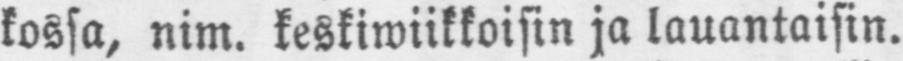kossa, nim. keskiwiikkoisin ja lauantaisin.
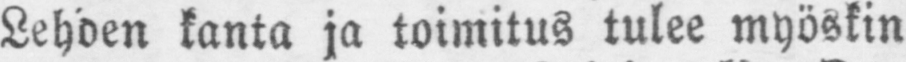Lehden kanta ja toimitus tulee myöskin
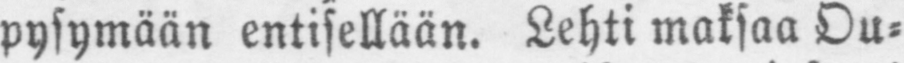pysymään entisellään. Lehti maksaa Ou-
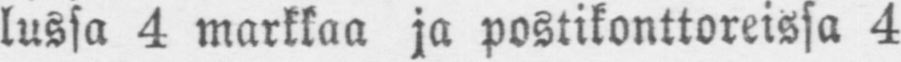lussa 4 markkaa ja postikonttoreissa 4
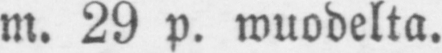m. 29 p. wuodelta.
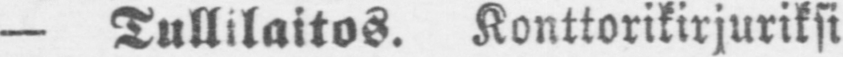— Tullilaitos. Konttorikirjuriksi
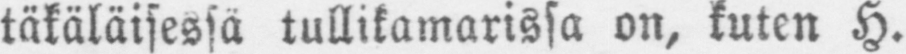täkäläisessä tullikamarissa on, kuten H.
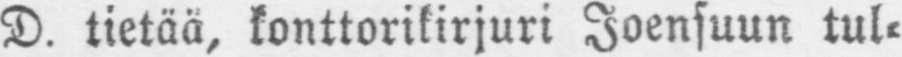D. tietää, konttorikirjuri Joensuun tul-
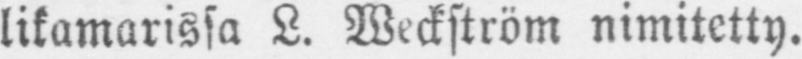likamarissa L. Weckström nimitetty.
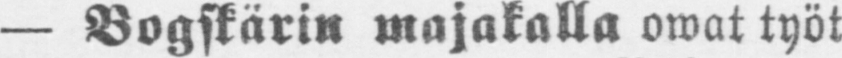— Bogskärin majakalla owat työt
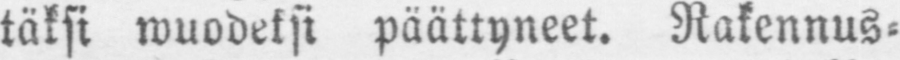täksi wuodeksi päättyneet. Rakennus-
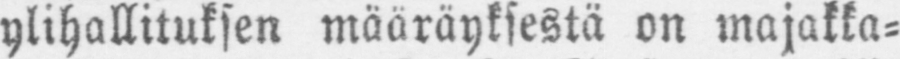ylihallituksen määräyksestä on majakka-
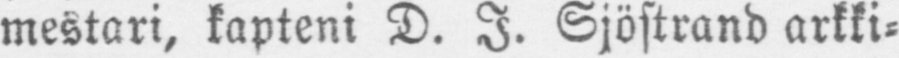mestari, kapteni D. I. Sjöstrand arkki-
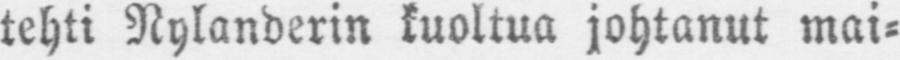tehti Nylanderin kuoltua johtanut mai-
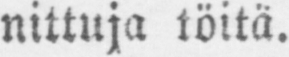nittuja töitä.
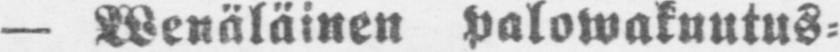— palowakuutus-
